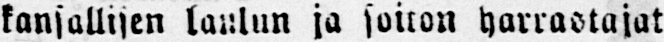kansallisen laulun ja soiton harrastajat
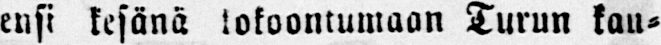ensi kesänä kokoontumaan Turun kau-
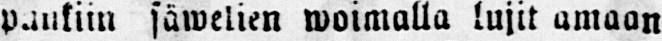punkiin säwelien woimalla lujit amaan
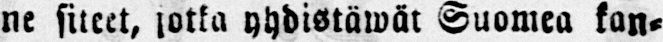ne siteet, jotka yhdistäwät Suomea kan-
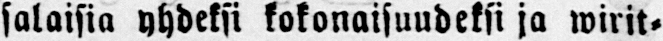salaisia yhdeksi kokonaisuudeksi ja wirit-
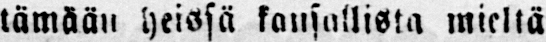tämään heissä kansallista mieltä
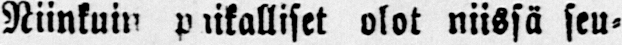Niinkuin paikalliset olot niissä seu-
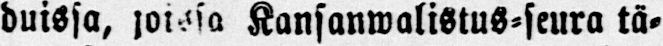duissa, joissa Kansanwalistus-seura tä-
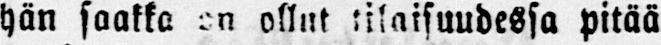hän saakka on ollut tilaisuudessa pitää
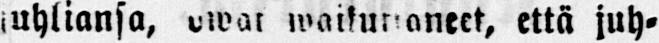juhliansa, owat waikuttaneet, että juh-
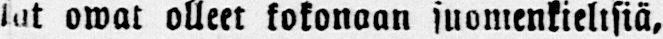lat owat olleet kokonaan suomenkielisiä,
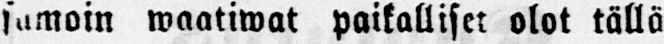samoin waatiwat paikalliset olot tällä
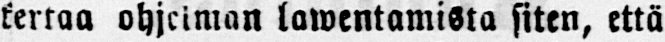kertaa ohjelman lawentamista siten, että
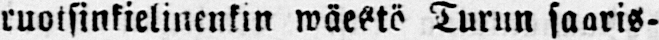ruotsinkielinenkin wäestö Turun saaris-
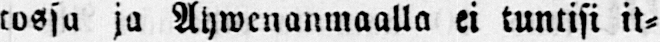tossa ja Ahwenanmaalla ei tuntisi it-
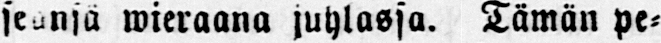seansä wieraana juhlassa. Tämän pe-
